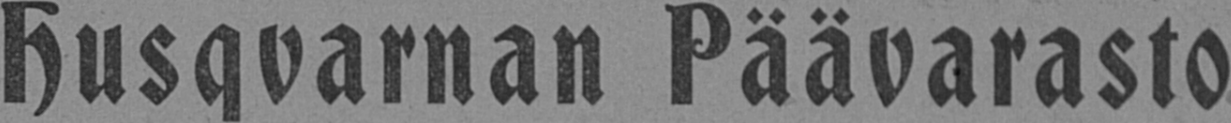Husqvarnan Päävarasto
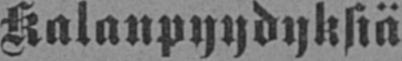Kalanpyydyksiä =
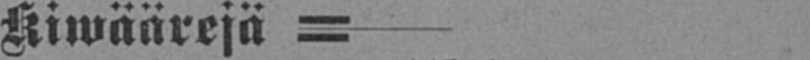Kiwäärejä =
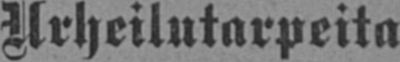Urheilutarpeita
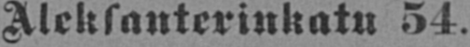Aleksanterinkatu 54.
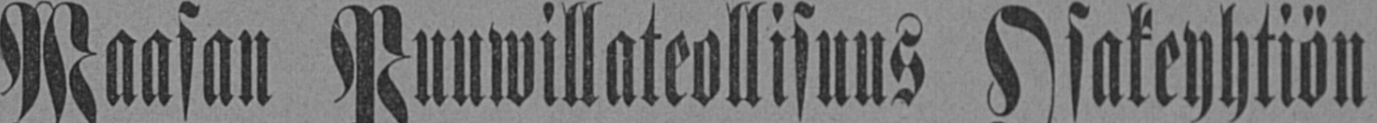Waasan Puuwillateollisuus Osakeyhtiön
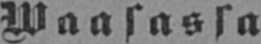Waasassa
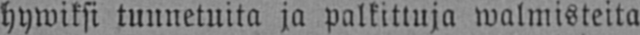hywiksi tunnetuita ja palkittuja walmisteita
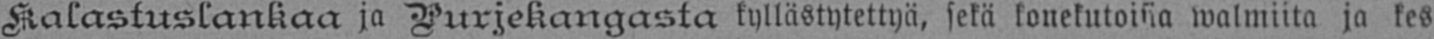Kalastuslankaa ja Purjekanasta kyllästytettyä, sekä konekutoisia walmiita ja kes-
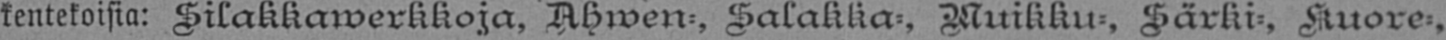kentekoisia: Silakkawerkkoja, Ahwen-, Salakka-, Muikku-, Särki-, Kuore-,
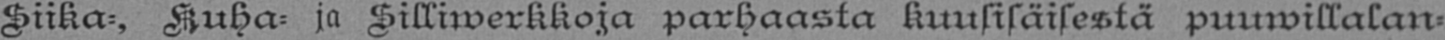Siika-, Kuha- ja Silliwerkkoja parhaasta kuusisäisestä puuwillalan-
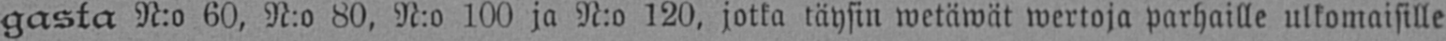gasta N:o 60, N:o 80, N:o 100 ja N:o 120, jotka täysin wetäwät wertoja parhaille ulkomaisille
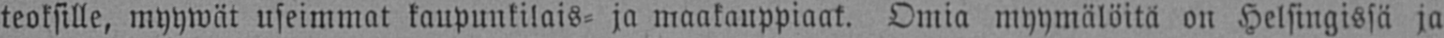teoksille, myywät useimmat kaupunkilais- ja maakauppiaat. Omia myymälöitä on Helsingissä ja
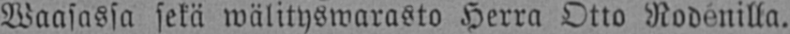Waasassa sekä wälityswarasto Herra Otto Rodenilla.
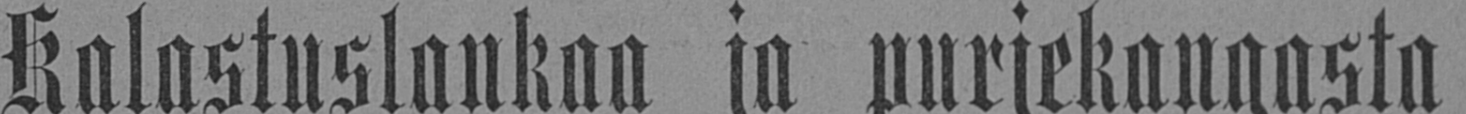Kalastuslankaa ja purjekangasta
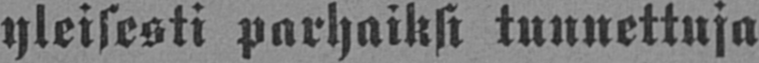yleisesti parhaiksi tunnettuja
